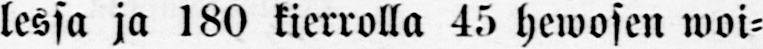lessa ja 180 kierrolla 45 hewosen woi-
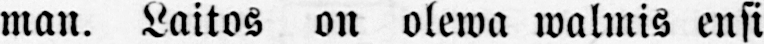man. Laitos on olewa walmis ensi
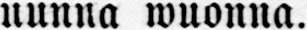uunna wuonna.
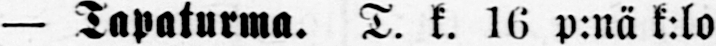— Tapaturma. T. k. 16 p:nä k:lo
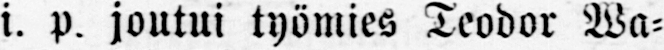i. p. joutui työmies Teodor Wa-
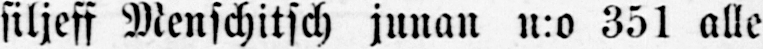siljeff Menschitsch junan n:o 351 alle
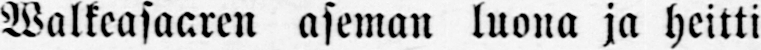Walkeasaaren aseman luona ja heitti
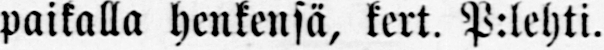paikalla henkensä, kert. P:lehti.
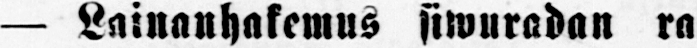— Lainanhakemus siwuradan ra-
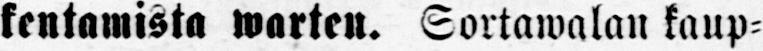kentamista warten. Sortawalan kaup-
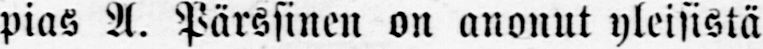pias A. Pärssinen on anonut yleisistä
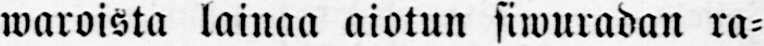waroista lainaa aiotun siwuradan ra-
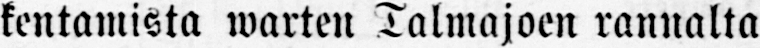kentamista warten Talmajoen rannalta
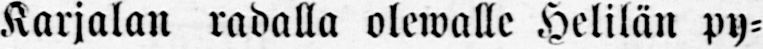Karjalan radalla olewalle Helilän py-
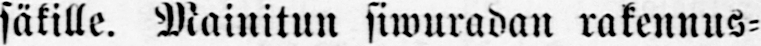säkille. Mainitun siwuradan rakennus-
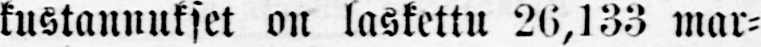kustannukset on laskettu 26,133 mar-
